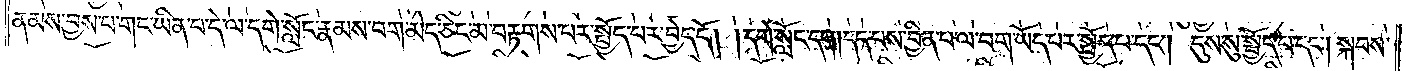ནམས་བྱས་པ་གང་ཡིན་པ་དེ་ལ་དགེ་སློང་རྣམས་བག་མེད་ཅིང་མ་བརྟགས་པར་སྤྱོད་པར་བྱེད་དོ། །དགེ་སློང་དག །དད་པས་བྱིན་པ་ལ་བག་ཡོད་པར་སྤྱོད་པ་དང༌། དུས་སུ་སྤྱོད་པ་དང༌། སྐབས་
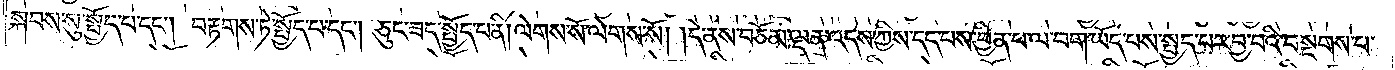སྐབས་སུ་སྤྱོད་པ་དང༌། བརྟགས་ཏེ་སྤྱོད་པ་དང༌། ཅུང་ཟད་སྤྱོད་པ་ནི། ལེགས་སོ་ལེགས་སོ། །དེ་ནས་བཅོམ་ལྡན་འདས་ཀྱིས་དད་པས་བྱིན་པ་ལ་བག་ཡོད་པས་སྤྱད་པར་བྱ་བའི་བསྔགས་པ་
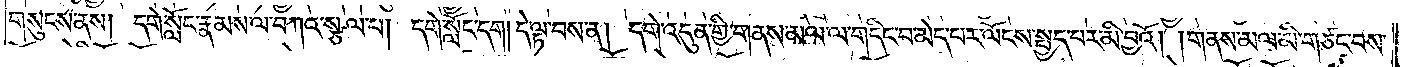གསུངས་ནས། དགེ་སློང་རྣམས་ལ་བཀའ་སྩལ་པ། དགེ་སློང་དག། དེ་ལྟ་བས་ན། དགེ་འདུན་གྱི་གནས་མལ་ལ་གདིང་བ་མེད་པར་ལོངས་སྤྱད་པར་མི་བྱའོ། །གནས་མལ་མི་གཙང་བས་
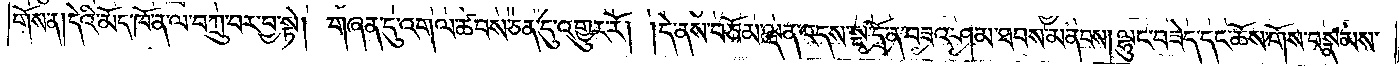གོས་ན། དེའི་མོད་ཁོ་ན་ལ་བཀྲུ་བར་བྱ་སྟེ། གཞན་དུ་འགལ་ཚབས་ཅན་དུ་འགྱུར་རོ། །དེ་ནས་བཅོམ་ལྡན་འདས་སྔ་དྲོ་བཟའ་ཤམ་ཐབས་མནབས། ལྷུང་བཟེད་དང་ཆོས་གོས་བསྣམས་
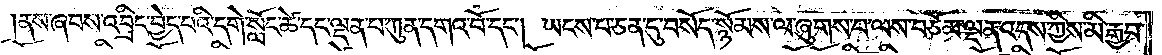ནས་ཞབས་འབྲིང་བྱེད་པའི་དགེ་སློང་ཚེ་དང་ལྡན་པ་ཀུན་དགའ་བོ་དང༌། ཡངས་པ་ཅན་དུ་བསོད་སྙོམས་ལ་ཞུགས་པ་ལས་བཅོམ་ལྡན་འདས་ཀྱིས་མི་རྒྱབ་
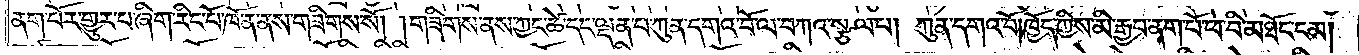ནག་པོར་གྱུར་པ་ཞིག་རིང་པོ་ཁོ་ན་ནས་གཟིགས་སོ། །གཟིགས་ནས་ཀྱང་ཚེ་དང་ལྡན་པ་ཀུན་དགའ་བོ་ལ་བཀའ་སྩལ་པ། ཀུན་དགའ་བོ། ཁྱོད་ཀྱིས་མི་རྒྱབ་ནག་པོ་ཕ་བི་མཐོང་ངམ།
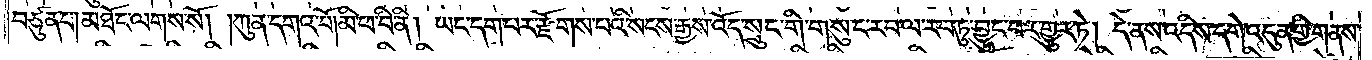བཙུན་པ། མཐོང་ལགས་སོ། །ཀུན་དགའ་བོ། མི་ཕ་བི་ནི། ཡང་དག་པར་རྫོགས་པའི་སངས་རྒྱས་འོད་སྲུང་གི་གསུང་རབ་ལ་རབ་ཏུ་བྱུང་བར་གྱུར་ཏེ། དེ་ནས་འདིས་དགེ་འདུན་གྱི་གནས་
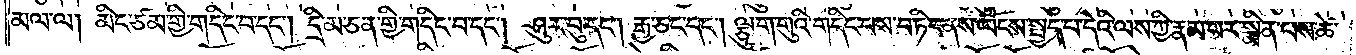མལ་ལ། མིང་ཙམ་གྱི་གདིང་བ་དང༌། དྲི་མ་ཅན་གྱི་གདིང་བ་དང༌། ཤུར་བུ་དང༌། རྒྱ་ཅང་དང༌། ལྕུག་གུའི་གདིང་བས་བཏིང་ནས་ལོངས་སྤྱད་པ་དེའི་ལས་ཀྱི་རྣམ་པར་སྨིན་པས་ཚེ་
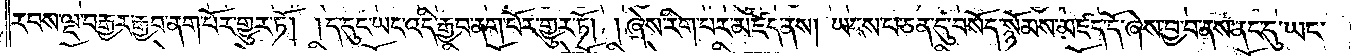རབས་ལྔ་བརྒྱར་རྒྱབ་ནག་པོར་གྱུར་ཏོ། །ད་དུང་ཡང་འདི་རྒྱབ་ནག་པོར་གྱུར་ཏོ། །ཞེས་རིག་པར་མཛད་ནས། ཡངས་པ་ཅན་དུ་བསད་སྙོམས་མཛད་དོ་ཞེས་བྱ་བ་ནས་ནང་དུ་ཡང་
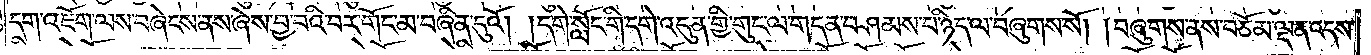དག་འཇོག་ལས་བཞེངས་ནས་ཞེས་བྱ་བའི་བར་གོང་མ་བཞིན་དུའོ། །དགེ་སློང་གི་དགེ་འདུན་གྱི་གུང་ལ་གདན་བཤམས་པ་ཉིད་ལ་བཞུགས་སོ། །བཞུགས་ནས་བཅོམ་ལྡན་འདས་
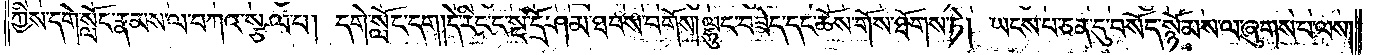ཀྱིས་དགེ་སློང་རྣམས་ལ་བཀའ་སྩལ་པ། དགེ་སློང་དག །དེ་རིང་ང་སྔ་དྲོ་ཤམ་ཐབས་བགོས། ལྷུང་བཟེད་དང་ཆོས་གོས་ཐོགས་ཏེ། ཡངས་པ་ཅན་དུ་བསོད་སྙོམས་ལ་ཞུགས་པ་ལས།
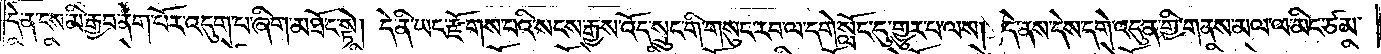དེ་ན་ངས་མི་རྒྱབ་ནག་པོར་འདུག་པ་ཞིག་མཐོང་སྟེ། དེ་ནི་ཡང་རྫོགས་པའི་སངས་རྒྱས་འོད་སྲུང་གི་གསུང་རབ་ལ་དགེ་སློང་དུ་གྱུར་པ་ལས། དེ་ནས་དེས་དགེ་འདུན་གྱི་གནས་མལ་ལ་མིང་ཙམ་
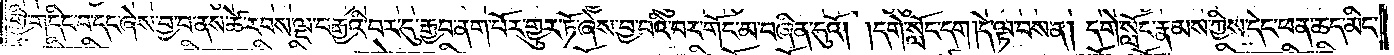གྱི་གདིང་བ་དང་ཞེས་བྱ་བ་ནས་ཚེ་རབས་ལྔ་བརྒྱའི་བར་དུ་རྒྱབ་ནག་པོར་གྱུར་ཏོ་ཞེས་བྱ་བའི་བར་གོང་མ་བཞིན་དུའོ། །དགེ་སློང་དག །དེ་ལྟ་བས་ན། དགེ་སློང་རྣམས་ཀྱིས་དེང་ཕན་ཆད་མིང་
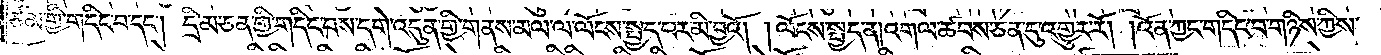ཙམ་གྱི་གདིང་བ་དང༌། དྲི་མ་ཅན་གྱི་གདིང་བས་དགེ་འདུན་གྱི་གནས་མལ་ལ་ལོངས་སྤྱད་པར་མི་བྱའོ། །ལོངས་སྤྱད་ན། འགལ་ཚབས་ཅན་དུ་འགྱུར་རོ། །འོན་ཀྱང་གདིང་བ་གཉིས་ཀྱིས་
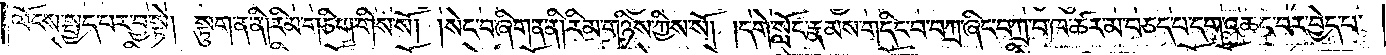ལོངས་སྤྱད་པར་བྱ་སྟེ། སྟུག་ན་ནི། རིམ་གཅིག་གིས་སོ། །སེང་བ་ཞིག་ན་ནི་།རིམ་གཉིས་ཀྱིས་སོ། །དགེ་སློང་རྣམས་གདིང་བ་བཀྲ་ཞིང་བཀྲ་བ་ཁ་ཚར་མ་བཅད་པ་དག་འཆང་བར་བྱེད་པ་
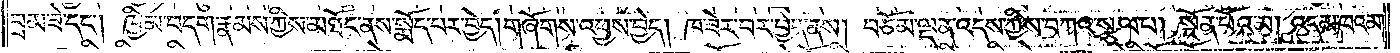བྲམ་ཟེ་དང༌། ཁྱིམ་བདག་རྣམས་ཀྱིས་མཐོང་ནས་སྨོད་པར་བྱེད། གཞོགས་འཕྱས་བྱེད། ཁ་ཟེར་བར་བྱེད་ནས། བཅོམ་ལྡན་འདས་ཀྱིས་བཀའ་སྩལ་པ། སྔོན་པོའམ། འདམ་ཁའམ།
